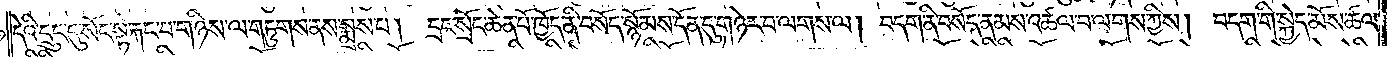དེའི་དྲུང་དུ་སོང་སྟེ་རྐང་པ་གཉིས་ལ་གཏུགས་ནས་སྨྲས་པ། དྲང་སྲོང་ཆེན་པོ་ཁྱོད་ནི་བསོད་སྙོམས་དོན་དུ་གཉེར་བ་ལགས་ལ། བདག་ནི་བསོད་ནམས་འཚལ་བ་ལགས་ཀྱིས། བདག་གི་སྐྱེད་མོས་ཚལ་
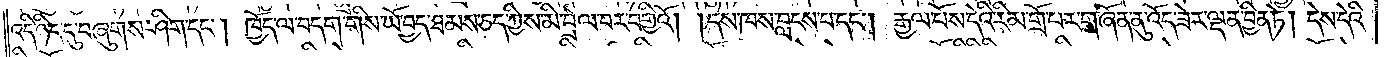འདི་ཉིད་དུ་བཞུགས་ཤིག་དང༌། ཁྱོད་ལ་བདག་གིས་ཡོ་བྱད་ཐམས་ཅད་ཀྱིས་མི་བྲེལ་བར་བགྱིའོ། །དེས་ཁས་བླངས་པ་དང༌། རྒྱལ་པོས་དེའི་རིམ་གྲོ་པར་གཞོན་ནུ་འོད་ཟེར་ལྡན་བྱིན་ཏེ། དེས་དེའི་
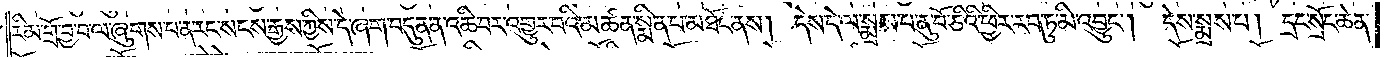རིམ་གྲོ་བྱ་བ་ལ་ཞུགས་པ་ན་རང་སངས་རྒྱས་ཀྱིས་དེ་ཞག་བདུན་ན་འཆི་བར་འགྱུར་བའི་མཚན་སྨིན་པ་མཐོང་ནས། དེས་དེ་ལ་སྨྲས་པ་ནུ་བོ་ཅིའི་ཕྱིར་རབ་ཏུ་མི་འབྱུང༌། དེས་སྨྲས་པ། དྲང་སྲོང་ཆེན་
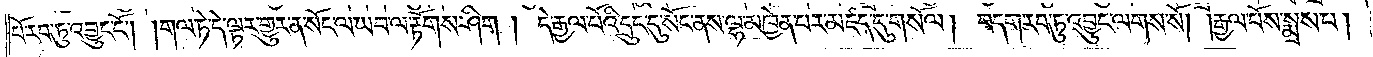པོ་རབ་ཏུ་འབྱུང་ངོ༌། །གལ་ཏེ་དེ་ལྟར་འགྱུར་ན་སོང་ལ་ཡབ་ལ་རྟོགས་ཤིག །དེ་རྒྱལ་པོའི་དྲུང་དུ་སོང་ནས་ལྷ་མཁྱེན་པར་མཛད་དུ་གསོལ། བདག་རབ་ཏུ་འབྱུང་ལགས་སོ། །རྒྱལ་པོས་སྨྲས་པ།
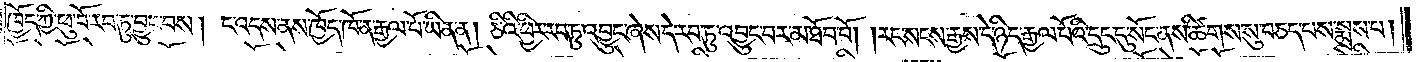ཁྱོད་ཀྱི་ཕུ་བོ་རབ་ཏུ་བྱུང་བས། ང་འདས་ནས་ཁྱོད་ཁོ་ན་རྒྱལ་པོ་ཡིན་ན། ཅིའི་ཕྱིར་རབ་ཏུ་འབྱུང་ཞེས་དེ་རབ་ཏུ་འབྱུང་བར་མ་ཐོབ་བོ། །རང་སངས་རྒྱས་དེ་ཉིད་རྒྱལ་པོའི་དྲུང་དུ་སོང་ནས་ཚིགས་སུ་བཅད་པས་སྨྲས་པ།
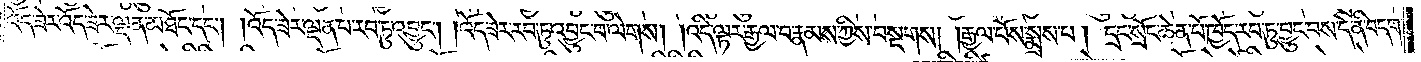འོད་ཟེར་འོད་ཟེར་ལྡན་མཐོང་དང༌། །འོད་ཟེར་ལྡན་པ་རབ་ཏུ་འབྱུང༌། །འོད་ཟེར་རབ་ཏུ་འབྱུང་བ་ལེགས། །འདི་ལྟར་རྒྱལ་བ་རྣམས་ཀྱིས་བསྔགས། །རྒྱལ་པོས་སྨྲས་པ། དྲང་སྲོང་ཆེན་པོ་ཁྱོད་རབ་ཏུ་བྱུང་བས་དེ་ནི་བདག་
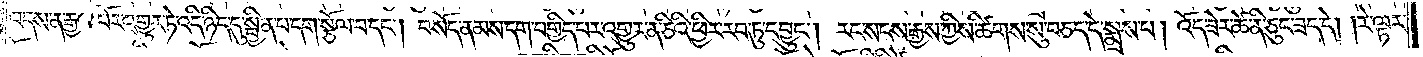འདས་ན་རྒྱལ་པོར་འགྱུར་ཏེ་འདི་ཉིད་དུ་སྦྱིན་པ་དག་སྩོལ་བ་དང༌། བསོད་ནམས་དག་བགྱིད་པར་འགྱུར་ན་ཅིའི་ཕྱིར་རབ་ཏུ་དབྱུང༌། རང་སངས་རྒྱས་ཀྱིས་ཚིགས་སུ་བཅད་དེ་སྨྲས་པ། འོད་ཟེར་ཚེ་ནི་ཅུང་ཟད་དེ། །རེ་ལྟར་
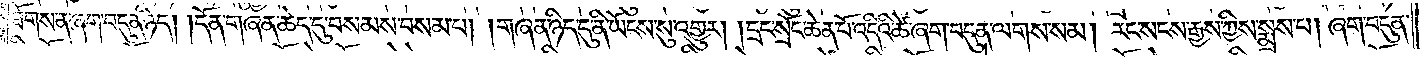ཐོགས་ན་ཞག་བདུན་ཉིད། །དོན་གཞན་ཆེད་དུ་བསམས་བསམ་པ། །གཞན་ཉིད་དུ་ནི་ཡོངས་སུ་འགྱུར། །དྲང་སྲོང་ཆེན་པོ་འདིའི་ཚེ་ཞག་བདུན་ལགས་སམ། རང་སངས་རྒྱས་ཀྱིས་སྨྲས་པ། ཞག་བདུན་
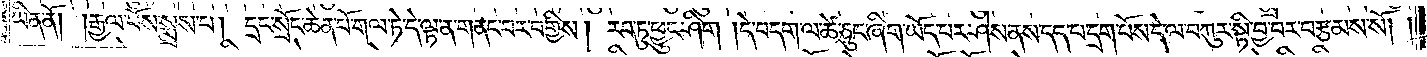ཡིན་ནོ། །རྒྱལ་པོས་སྨྲས་པ། དྲང་སྲོང་ཆེན་པོ་གལ་ཏེ་དེ་ལྟ་ན་གནང་བར་བགྱིས། རབ་ཏུ་ཕྱུང་ཤིག །དེ་བདག་ལ་ཚེ་ཅུང་ཞིག་ཡོད་པར་ཤེས་ནས་དད་པ་དྲག་པོས་དེ་ལ་བཀུར་སྟི་བྱ་བར་བརྩམས་སོ། །
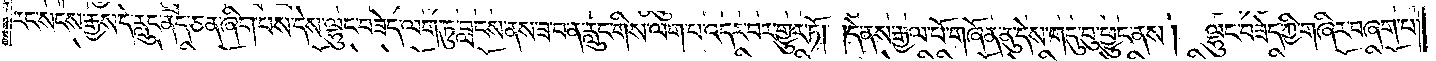རང་སངས་རྒྱས་དེ་རླུང་ནད་ཅན་ཞིག་པས་དེས་ལྷུང་བཟེད་ལག་ཏུ་བླངས་ནས་ཟ་བ་ན་རླུང་གིས་ལག་པ་འདར་བར་གྱུར་ཏོ། དེ་ནས་རྒྱལ་པོ་གཞོན་ནུ་དེས་གདུ་བུ་ཕྱུང་ནས། ལྷུང་བཟེད་ཀྱི་གཞིར་བཞག་པ་
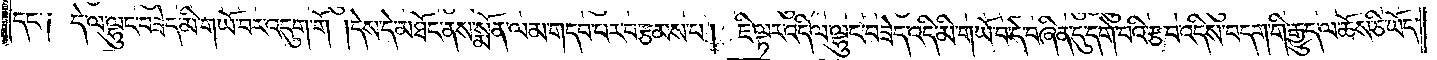དང་༑ དེ་ལ་ལྷུང་བཟེད་མི་གཡོ་བར་འདུག་གོ །དེས་དེ་མཐོང་ནས་སྨོན་ལམ་གདབ་པར་བརྩམས་པ། ཇི་ལྟར་འདི་ལ་ལྷུང་བཟེད་འདི་མི་གཡོ་བ་དེ་བཞིན་དུ་དགེ་བའི་རྩ་བ་འདིས་བདག་གི་རྒྱུད་ལ་ཆོས་ཅི་ཡོད་
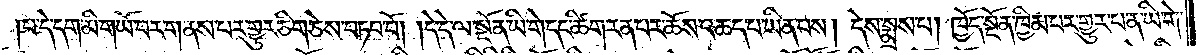།པ་དེ་དག་མི་གཡོ་བར་གནས་པར་གྱུར་ཅིག་ཅེས་བཏབ་བོ། །དེ་དེ་ལ་སྔོན་ཡི་གེ་དང་ཚིག་རན་པར་ཆོས་འཆད་པ་ཡིན་པས། དེས་སྨྲས་པ། ཁྱོད་སྔོན་ཁྱིམ་པར་གྱུར་པ་ན་ཡི་གེ་
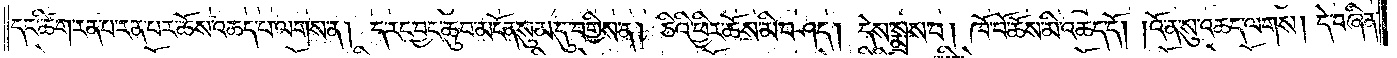དང་ཚིག་རན་པ་རན་པར་ཆོས་འཆད་པ་ལགས་ན། ད་རང་བྱང་ཆུབ་མངོན་སུམ་དུ་བགྱིས་ན། ཅིའི་ཕྱིར་ཆོས་མི་བཤད། དེས་སྨྲས་པ། ཁོ་བོ་ཆོས་མི་འཆད་དོ། །འོ་ན་སུ་འཆད་ལགས། དེ་བཞིན་
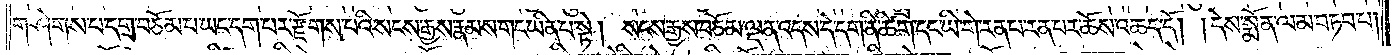གཤེགས་པ་དགྲ་བཅོམ་པ་ཡང་དག་པར་རྫོགས་པའི་སངས་རྒྱས་རྣམས་གང་ཡིན་པ་སྟེ། སངས་རྒྱས་བཅོམ་ལྡན་འདས་དེ་དག་ནི་ཚིག་དང་ཡི་གེ་རན་པ་རན་པར་ཆོས་འཆད་དོ། །དེས་སྨོན་ལམ་བཏབ་པ།
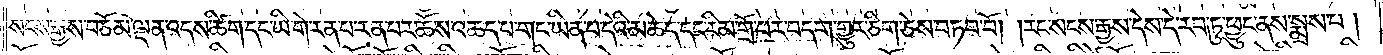སངས་རྒྱས་བཅོམ་ལྡན་འདས་ཚིག་དང་ཡི་གེ་རན་པ་རན་པར་ཆོས་འཆད་པ་གང་ཡིན་པ་དེའི་མཆེད་དང་རིམ་གྲོ་པར་བདག་གྱུར་ཅིག་ཅེས་བཏབ་བོ། །རང་སངས་རྒྱས་དེས་དེ་རབ་ཏུ་ཕྱུང་ནས་སྨྲས་པ།
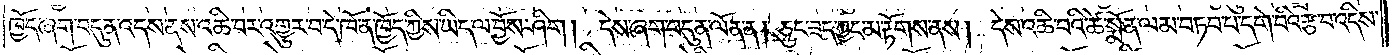ཁྱོད་ཞག་བདུན་འདས་ནས་འཆི་བར་འགྱུར་བ་དེ་ཁོ་ན་ཁྱོད་ཀྱིས་ཡིད་ལ་བྱོས་ཤིག། དེས་ཞག་བདུན་ལོན་ན། ཅུང་ཟད་ཀྱང་མ་རྟོགས་ནས། དེས་འཆི་བའི་ཚེ་སྨོན་ལམ་བཏབ་པ་དགེ་བའི་རྩ་བ་འདིས་
